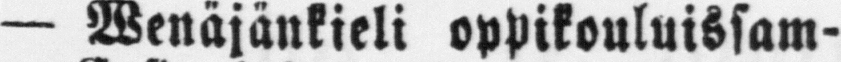— Wenäjänkieli oppikouluissam-
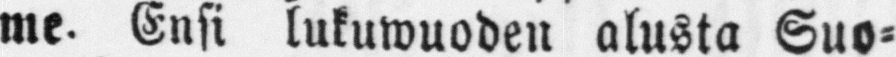me. Ensi lukuwuoden alusta Suo-
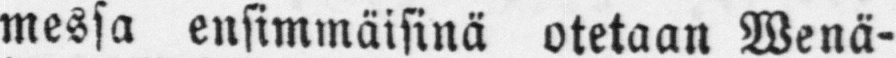messa ensimmäisinä otetaan Wenä-
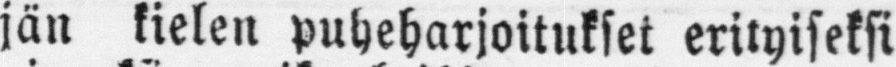jän kielen puheharjoitukset erityiseksi
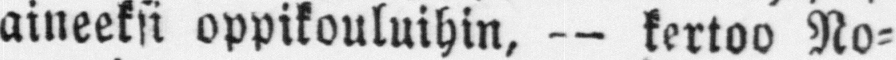aineeksi oppikouluihin, — kertoo No-
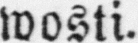wosti.
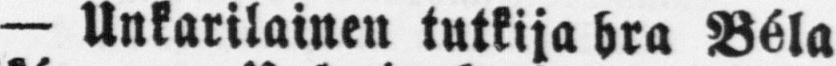— Unkarilainen tutkija hra Béla
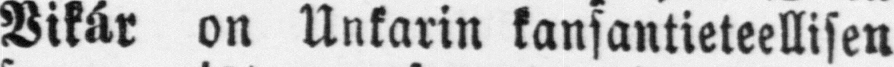Vikár on Unkarin kansantieteellisen
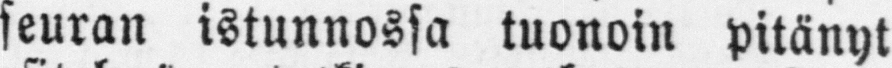seuran istunnossa tuonoin pitänyt
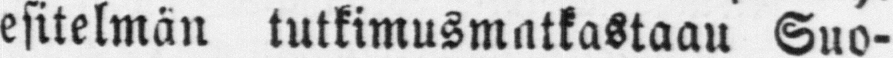esitelmän tutkimusmatkastaau Suo-
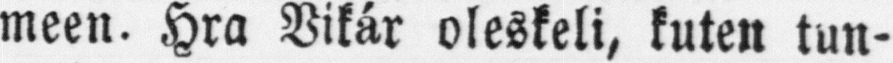meen. Hra Vikár oleskeli, kuten tun-
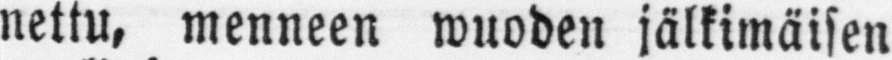nettu, menneen wuoden jälkimäisen
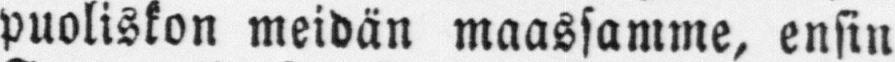puoliskon meidän maassamme, ensin
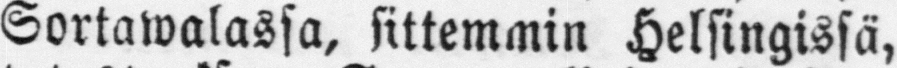Sortawalassa, sittemmin Helsingissä,
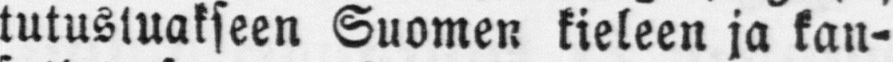tutustuakseen Suomen kieleen ja kan-
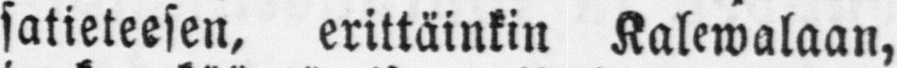satieteesen, erittäinkin Kalewalaan,
